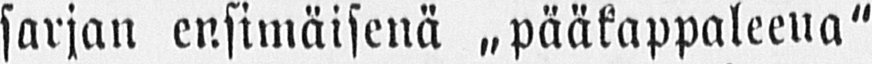sarjan ensimäisenä ˶pääkappaleena"
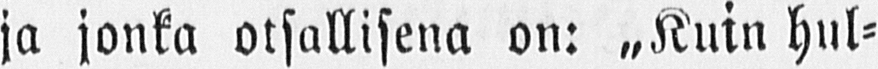ja jonka otsallisena on: ˶Kuin hul-
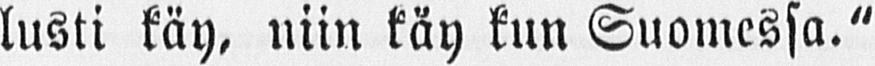lusti käy, niin käy kun Suomessa."
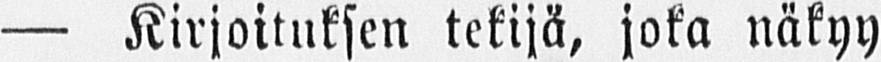— Kirjoituksen tekijä, joka näkyy
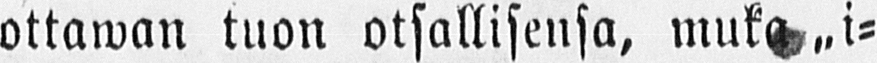ottawan tuon otsallisena, muka˶ i-
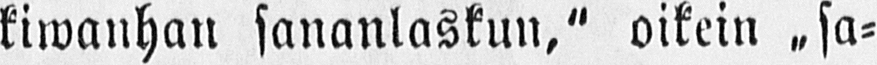kiwanhan sananlaskun," oikein ˶sa-
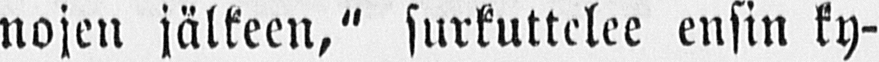nojen jälkeen," surkuttelee ensin ky-
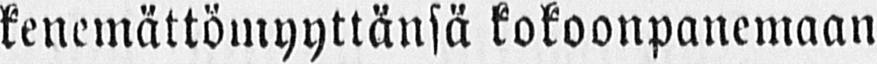kenemättömyyttänsä kokoonpanemaan
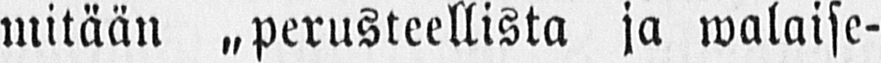mitään ˶perusteellista ja walaise-
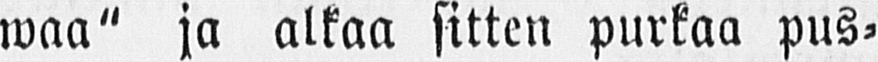waa" ja alkaa sitten purkaa pus-
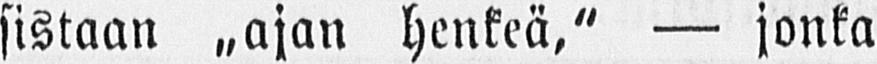sistaan ˶ajan henkeä," — jonka
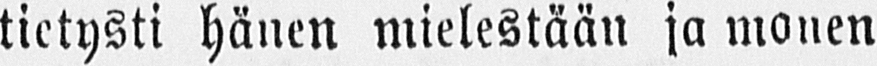tietysti hänen mielestään ja monen
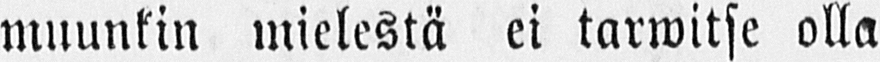muunkin mielestä ei tarwitse olla
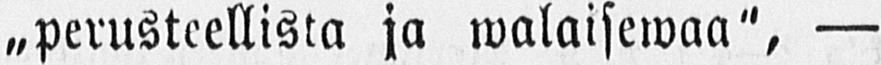˶perusteellista ja walaisewaa", —
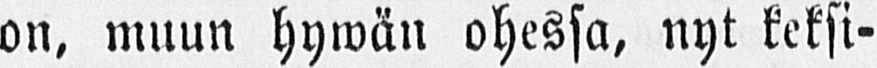on, muun hywän ohessa, nyt keksi-
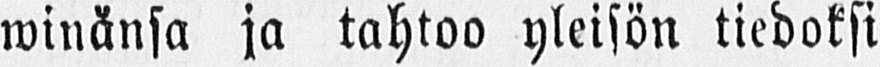winänsä ja tahtoo yleisön tiedoksi
